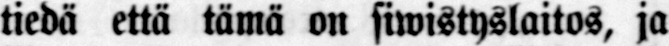tiedä että tämä on siwistyslaitos, ja
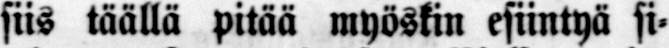siis täällä pitää myöskin esiintyä si-
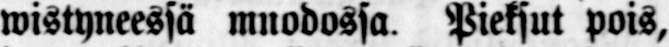wistyneessä muodossa. Pieksut pois,
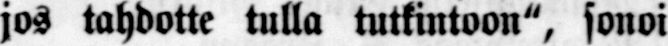jos tahdotte tulla tutkintoon", sonoi
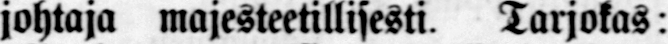johtaja majesteetillisesti. Tarjokas:
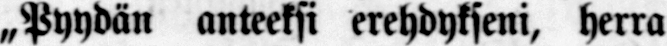„Pyydän anteeksi erehdykseni, herra
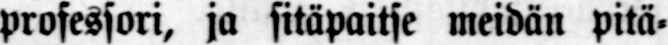professori, ja sitäpaitsi meidän pitä-
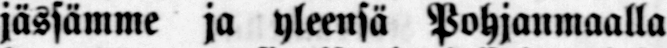jässämme ja yleensä Pohjanmaalla
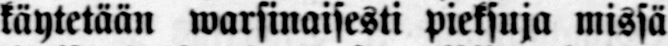käytetään warsinaisesti pieksuja missä
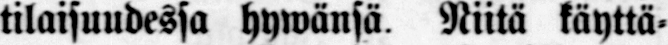tilaisuudessa hywänsä. Niitä käyttä-
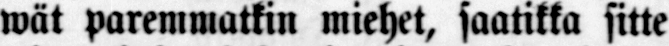wät paremmatkin miehet, saatikka sitte
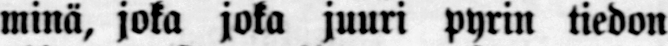minä, joka joka juuri pyrin tiedon
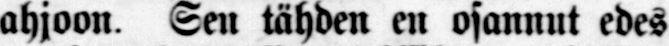ahjoon. Sen tähden en osannut edes
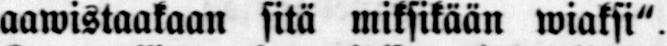aawistaakaan sitä miksikään wiaksi".
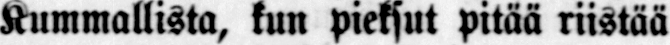Kummallista, kun pieksut pitää riistää
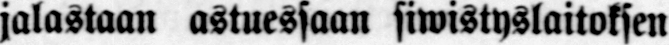jalastaan astuessaan siwistyslaitoksen
